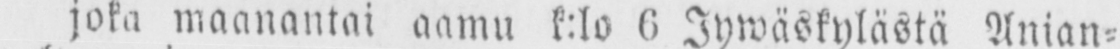joka maanantai aamu k:lo 6 Jywäskylästä Anian-
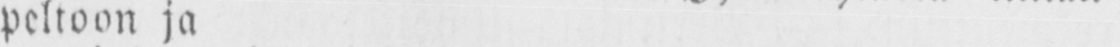peltoon ja
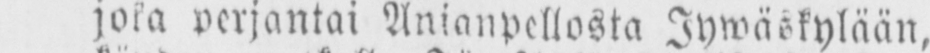joka perjantai Anianpellosta Jywäskylään,
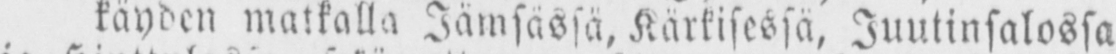käyden matkalla Jämsässä, kärkisessä, Juutinsalossa
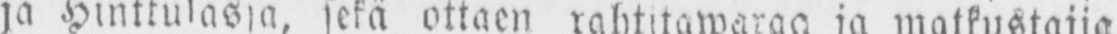ja Hinttulassa, sekä rahtitawaraa ja matkustajia
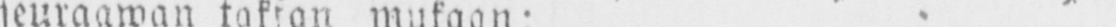seuraawan taksan mukaan:
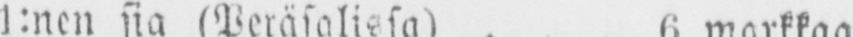l:nen sia (Peräsalissa) 6 markkaa.
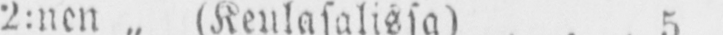2:nen „ (Keulasalissa)5„
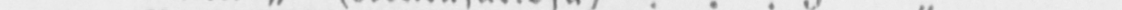Perätäkillä 3 „
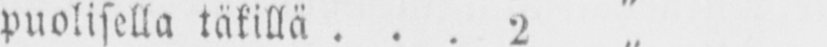Keulan puolisella täkillä 2„
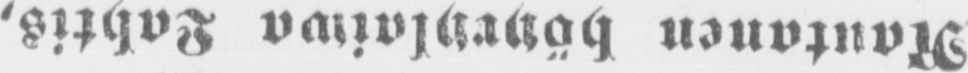Rautanen höyrylaiwa Lahtis,
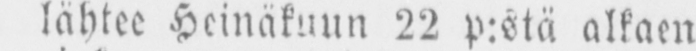lähtee Heinäkuun 22 p:stä alkaen
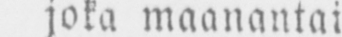joka maanantai
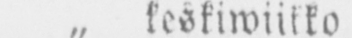״ keskiwiikko
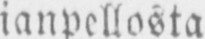Anianpellosta
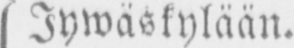Jywäskylään.
